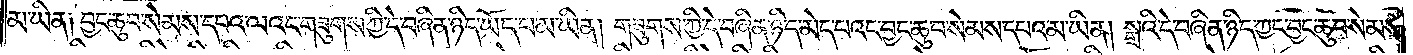མ་ཡིན༑ བྱང་ཆུབ་སེམས་དཔའ་ལའང་གཟུགས་ཀྱི་དེ་བཞིན་ཉིད་ཡོད་པ་མ་ཡིན། གཟུགས་ཀྱི་དེ་བཞིན་ཉིད་མེད་པའང་བྱང་ཆུབ་སེམས་དཔའ་མ་ཡིན། སྒྲའི་དེ་བཞིན་ཉིད་ཀྱང་བྱང་ཆུབ་སེམས་
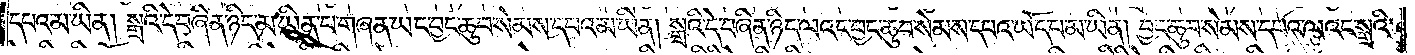དཔའ་མ་ཡིན། སྒྲའི་དེ་བཞིན་ཉིད་མ་ཡིན་པ་གཞན་ཡང་བྱང་ཆུབ་སེམས་དཔའ་མ་ཡིན། སྒྲའི་དེ་བཞིན་ཉིད་ལའང་བྱང་ཆུབ་སེམས་དཔའ་ཡོད་པ་མ་ཡིན། བྱང་ཆུབ་སེམས་དཔའ་ལའང་སྒྲའི་
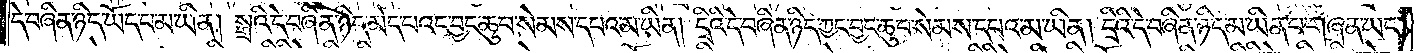དེ་བཞིན་ཉིད་ཡོད་པ་མ་ཡིན། སྒྲའི་དེ་བཞིན་ཉིད་མེད་པའང་བྱང་ཆུབ་སེམས་དཔའ་མ་ཡིན། དྲིའི་དེ་བཞིན་ཉིད་ཀྱང་བྱང་ཆུབ་སེམས་དཔའ་མ་ཡིན། དྲིའི་དེ་བཞིན་ཉིད་མ་ཡིན་པ་གཞན་ཡང་
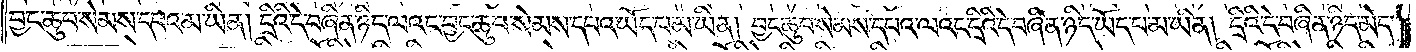བྱང་ཆུབ་སེམས་དཔའ་མ་ཡིན། དྲིའི་དེ་བཞིན་ཉིད་ལའང་བྱང་ཆུབ་སེམས་དཔའ་ཡོད་པ་མ་ཡིན། བྱང་ཆུབ་སེམས་དཔའ་ལའང་དྲིའི་དེ་བཞིན་ཉིད་ཡོད་པ་མ་ཡིན། དྲིའི་དེ་བཞིན་ཉིད་མེད་
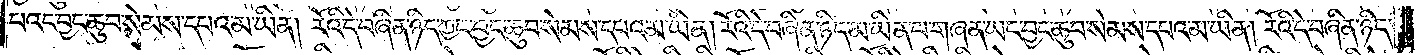པའང་བྱང་ཆུབ་སེམས་དཔའ་མ་ཡིན། རོའི་དེ་བཞིན་ཉིད་ཀྱང་བྱང་ཆུབ་སེམས་དཔའ་མ་ཡིན། རོའི་དེ་བཞིན་ཉིད་མ་ཡིན་པ་གཞན་ཡང་བྱང་ཆུབ་སེམས་དཔའ་མ་ཡིན། རོའི་དེ་བཞིན་ཉིད་
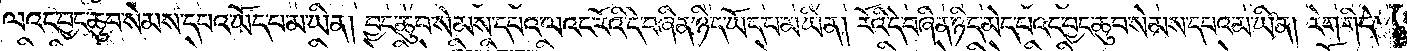ལའང་བྱང་ཆུབ་སེམས་དཔའ་ཡོད་པ་མ་ཡིན། བྱང་ཆུབ་སེམས་དཔའ་ལའང་རོའི་དེ་བཞིན་ཉིད་ཡོད་པ་མ་ཡིན། རོའི་དེ་བཞིན་ཉིད་མེད་པའང་བྱང་ཆུབ་སེམས་དཔའ་མ་ཡིན། རེག་གི་དེ་
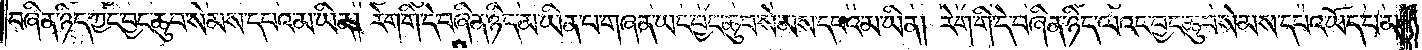བཞིན་ཉིད་ཀྱང་བྱང་ཆུབ་སེམས་དཔའ་མ་ཡིན། རེག་གི་དེ་བཞིན་ཉིད་མ་ཡིན་པ་གཞན་ཡང་བྱང་ཆུབ་སེམས་དཔའ་མ་ཡིན། རེག་གི་དེ་བཞིན་ཉིད་ལའང་བྱང་ཆུབ་སེམས་དཔའ་ཡོད་པ་མ་
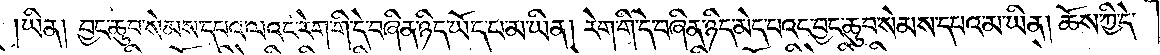ཡིན། བྱང་ཆུབ་སེམས་དཔའ་ལའང་རེག་གི་དེ་བཞིན་ཉིད་ཡོད་པ་མ་ཡིན། རེག་གི་དེ་བཞིན་ཉིད་མེད་པའང་བྱང་ཆུབ་སེམས་དཔའ་མ་ཡིན། ཆོས་ཀྱི་དེ་
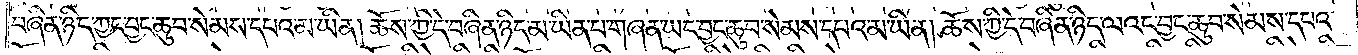བཞིན་ཉིད་ཀྱང་བྱང་ཆུབ་སེམས་དཔའ་མ་ཡིན། ཆོས་ཀྱི་དེ་བཞིན་ཉིད་མ་ཡིན་པ་གཞན་ཡང་བྱང་ཆུབ་སེམས་དཔའ་མ་ཡིན། ཆོས་ཀྱི་དེ་བཞིན་ཉིད་ལའང་བྱང་ཆུབ་སེམས་དཔའ་
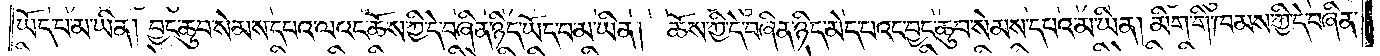ཡོད་པ་མ་ཡིན། བྱང་ཆུབ་སེམས་དཔའ་ལའང་ཆོས་ཀྱི་དེ་བཞིན་ཉིད་ཡོད་པ་མ་ཡིན། ཆོས་ཀྱི་དེ་བཞིན་ཉིད་མེད་པའང་བྱང་ཆུབ་སེམས་དཔའ་མ་ཡིན། མིག་གི་ཁམས་ཀྱི་དེ་བཞིན་
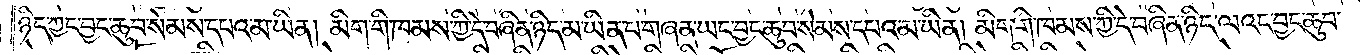ཉིད་ཀྱང་བྱང་ཆུབ་སེམས་དཔའ་མ་ཡིན། མིག་གི་ཁམས་ཀྱི་དེ་བཞིན་ཉིད་མ་ཡིན་པ་གཞན་ཡང་བྱང་ཆུབ་སེམས་དཔའ་མ་ཡིན། མིག་གི་ཁམས་ཀྱི་དེ་བཞིན་ཉིད་ལའང་བྱང་ཆུབ་
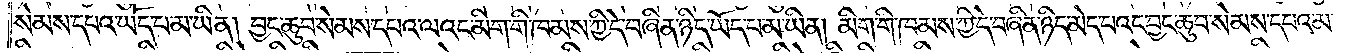སེམས་དཔའ་ཡོད་པ་མ་ཡིན། བྱང་ཆུབ་སེམས་དཔའ་ལའང་མིག་གི་ཁམས་ཀྱི་དེ་བཞིན་ཉིད་ཡོད་པ་མ་ཡིན། མིག་གི་ཁམས་ཀྱི་དེ་བཞིན་ཉིད་མེད་པའང་བྱང་ཆུབ་སེམས་དཔའ་མ་
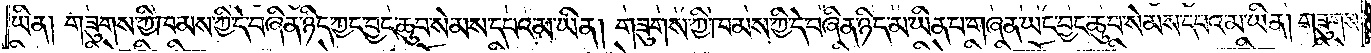ཡིན། གཟུགས་ཀྱི་ཁམས་ཀྱི་དེ་བཞིན་ཉིད་ཀྱང་བྱང་ཆུབ་སེམས་དཔའ་མ་ཡིན། གཟུགས་ཀྱི་ཁམས་ཀྱི་དེ་བཞིན་ཉིད་མ་ཡིན་པ་གཞན་ཡང་བྱང་ཆུབ་སེམས་དཔའ་མ་ཡིན། གཟུགས་
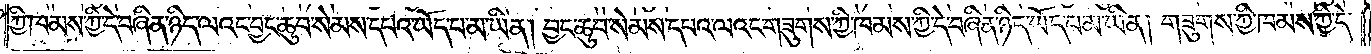ཀྱི་ཁམས་ཀྱི་དེ་བཞིན་ཉིད་ལའང་བྱང་ཆུབ་སེམས་དཔའ་ཡོད་པ་མ་ཡིན། བྱང་ཆུབ་སེམས་དཔའ་ལའང་གཟུགས་ཀྱི་ཁམས་ཀྱི་དེ་བཞིན་ཉིད་ཡོད་པ་མ་ཡིན། གཟུགས་ཀྱི་ཁམས་ཀྱི་དེ་
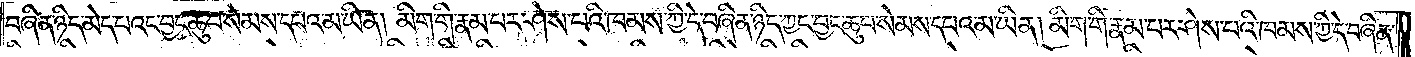བཞིན་ཉིད་མེད་པའང་བྱང་ཆུབ་སེམས་དཔའ་མ་ཡིན། མིག་གི་རྣམ་པར་ཤེས་པའི་ཁམས་ཀྱི་དེ་བཞིན་ཉིད་ཀྱང་བྱང་ཆུབ་སེམས་དཔའ་མ་ཡིན། མིག་གི་རྣམ་པར་ཤེས་པའི་ཁམས་ཀྱི་དེ་བཞིན་
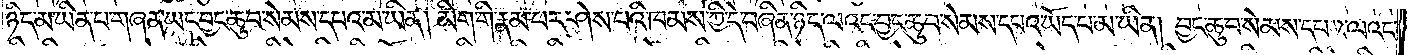ཉིད་མ་ཡིན་པ་གཞན་ཡང་བྱང་ཆུབ་སེམས་དཔའ་མ་ཡིན། མིག་གི་རྣམ་པར་ཤེས་པའི་ཁམས་ཀྱི་དེ་བཞིན་ཉིད་ལའང་བྱང་ཆུབ་སེམས་དཔའ་ཡོད་པ་མ་ཡིན། བྱང་ཆུབ་སེམས་དཔའ་ལའང་
